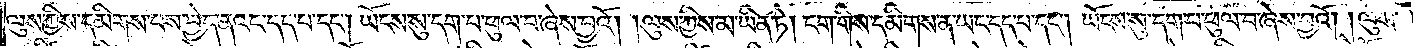ལུས་ཀྱིས་དམིགས་པས་བྱེད་ནའང་དད་པ་དང༌། ཡོངས་སུ་དག་པ་ཕུལ་བ་ཞེས་བྱའོ། །ལུས་ཀྱིས་མ་ཡིན་ཏེ། ངག་གིས་དམིགས་ན་ཡང་དད་པ་དང༌། ཡོངས་སུ་དག་པ་ཕུལ་བ་ཞེས་བྱའོ། །ལུས་
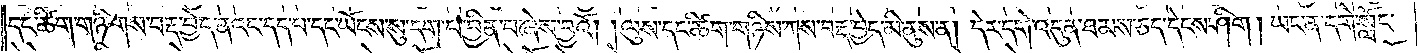དང་ཚིག་གཉི་གས་བརྡ་བྱེད་ནའང་དད་པ་དང་ཡོངས་སུ་དག་པ་བྱིན་པ་ཞེས་བྱའོ། །ལུས་དང་ཚིག་གཉིས་ཀས་བརྡ་བྱེད་མི་ནུས་ན། དེར་དགེ་འདུན་ཐམས་ཅད་དེངས་ཤིག། ཡང་ན་དགེ་སློང་
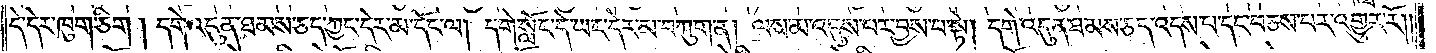དེ་དེར་ཁུག་ཅིག། དགེ་འདུན་ཐམས་ཅད་ཀྱང་དེར་མ་དོང་ལ། དགེ་སློང་དེ་ཡང་དེར་མ་བཀུག་ན། ལས་མ་འདུས་པར་བྱས་པ་སྟེ། དགེ་འདུན་ཐམས་ཅད་འདས་པ་དང་བཅས་པར་འགྱུར་རོ༎
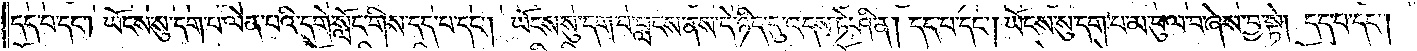དད་པ་དང༌། ཡོངས་སུ་དག་པ་ལེན་པའི་དགེ་སློང་གིས་དད་པ་དང༌། ཡོངས་སུ་དག་པ་བླངས་ནས་དེ་ཉིད་དུ་འདས་ཏེ་ཤི་ན། དད་པ་དང༌། ཡོངས་སུ་དག་པ་མ་ཕུལ་བ་ཞེས་བྱ་སྟེ། དད་པ་དང༌།
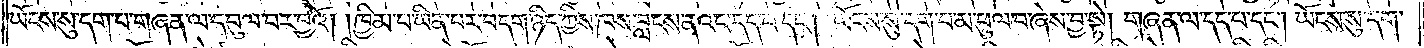ཡོངས་སུ་དག་པ་གཞན་ལ་དབུལ་བར་བྱའོ། །ཁྱིམ་པ་ཡིན་པར་བདག་ཉིད་ཀྱིས་ཁས་བླངས་ནའང་དད་པ་དང༌། ཡོངས་སུ་དག་པ་མ་ཕུལ་བ་ཞེས་བྱ་སྟེ། གཞན་ལ་དད་པ་དང༌། ཡོངས་སུ་དག་
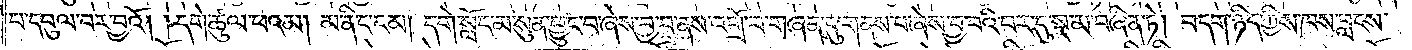པ་དབུལ་བར་བྱའོ། །དགེ་ཚུལ་ཕའམ། མ་ནིང་ངམ། དགེ་སློང་མ་སུན་ཕྱུང་བ་ཞེས་བྱ་བ་ནས་འགྲོ་བ་གཞན་དུ་གནས་པ་ཞེས་བྱ་བའི་བར་དུ་སྔ་མ་བཞིན་ཏེ། བདག་ཉིད་ཀྱིས་ཁས་བླངས་
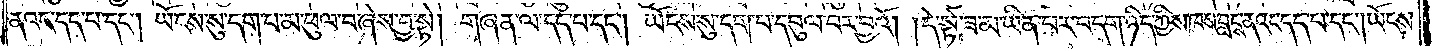ནའང་དད་པ་དང༌། ཡོངས་སུ་དག་པ་མ་ཕུལ་བ་ཞེས་བྱ་སྟེ། གཞན་ལ་དད་པ་དང༌། ཡོངས་སུ་དག་པ་དབུལ་བར་བྱའོ། །དེ་སྟེ་ཟ་མ་ཡིན་པར་བདག་ཉིད་ཀྱིས་ཁས་བླངས་ནའང་དད་པ་དང༌། ཡོངས་
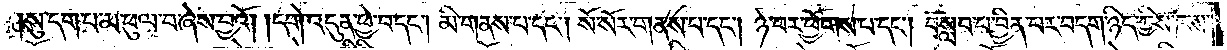སུ་དག་པ་མ་ཕུལ་བ་ཞེས་བྱའོ། །དགེ་འདུན་ཕྱེ་བ་དང༌། མི་གནས་པ་དང༌། སོ་སོར་གནས་པ་དང༌། ཉེ་བར་ཕྱོགས་པ་དང༌། བསླབ་པ་བྱིན་པར་བདག་ཉིད་ཀྱིས་ཁས་
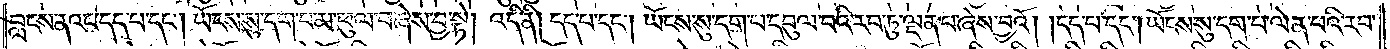བླངས་ནའང་དད་པ་དང༌། ཡོངས་སུ་དག་པ་མ་ཕུལ་བ་ཞེས་བྱ་སྟེ། འདི་ནི། དད་པ་དང༌། ཡོངས་སུ་དག་པ་དབུལ་བའི་རབ་ཏུ་ལྡན་པ་ཞེས་བྱའོ། །དད་པ་དང༌། ཡོངས་སུ་དག་པ་ལེན་པའི་རབ་
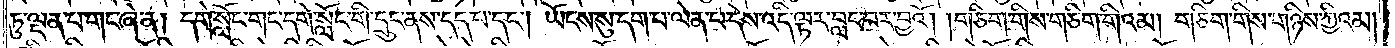ཏུ་ལྡན་པ་གང་ཞེ་ན། དགེ་སློང་གང་དགེ་སློང་གི་དྲུང་ནས་དད་པ་དང༌། ཡོངས་སུ་དག་པ་ལེན་པ་དེས་འདི་ལྟར་བླང་བར་བྱའོ། །གཅིག་གིས་གཅིག་གིའམ། གཅིག་གིས་གཉིས་ཀྱིའམ།
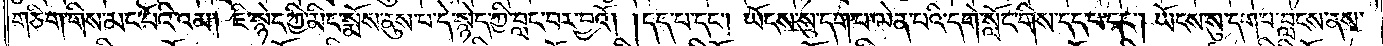གཅིག་གིས་མང་པོའི་འམ། ཇི་སྙེད་ཀྱི་མིང་སྨོས་ནུས་པ་དེ་སྙེད་ཀྱི་བླང་བར་བྱའོ། །དད་པ་དང༌། ཡོངས་སུ་དག་པ་ལེན་པའི་དགེ་སློང་གིས་དད་པ་དང༌། ཡོངས་སུ་དག་པ་བླངས་ནས་
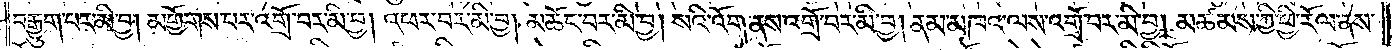བརྒྱུག་པར་མི་བྱ། མགྱོགས་པར་འགྲོ་བར་མི་བྱ། འཕར་བར་མི་བྱ། མཆོང་བར་མི་བྱ། སའི་འོག་ནས་འགྲོ་བར་མི་བྱ། ནམ་མཁའ་ལས་འགྲོ་བར་མི་བྱ། མཚམས་ཀྱི་ཕྱི་རོལ་ནས་
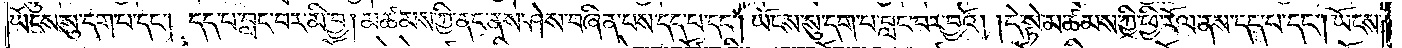ཡོངས་སུ་དག་པ་དང༌། དད་པ་བླང་བར་མི་བྱ། མཚམས་ཀྱི་ནང་ནས་ཤེས་བཞིན་པས་དད་པ་དང༌། ཡོངས་སུ་དག་པ་བླང་བར་བྱའོ། །དེ་སྟེ་མཚམས་ཀྱི་ཕྱི་རོལ་ནས་དད་པ་དང༌། ཡོངས་
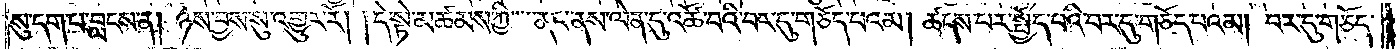སུ་དག་པ་བླངས་ན། ཉེས་བྱས་སུ་འགྱུར་རོ། །དེ་སྟེ་མཚམས་ཀྱི་ནང་ནས་ལེན་དུ་འཚོ་བའི་བར་དུ་གཅོད་པའམ། ཚངས་པར་སྤྱོད་པའི་བར་དུ་གཅོད་པའམ། བར་དུ་གཅོད་
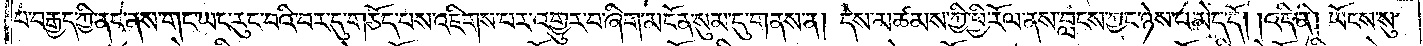བ་བརྒྱད་ཀྱི་ནང་ནས་གང་ཡང་རུང་བའི་བར་དུ་གཅོད་པས་འཇིགས་པར་འགྱུར་བ་ཞིག་མངོན་སུམ་དུ་གནས་ན། དེས་མཚམས་ཀྱི་ཕྱི་རོལ་ནས་བླངས་ཀྱང་ཉེས་པ་མེད་དོ། །འདི་ནི། ཡོངས་སུ་
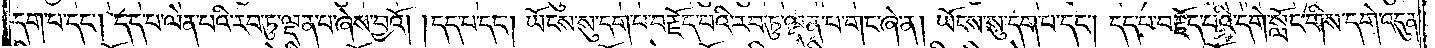དག་པ་དང༌། དད་པ་ལེན་པའི་རབ་ཏུ་ལྡན་པ་ཞེས་བྱའོ། །དད་པ་དང༌། ཡོངས་སུ་དག་པ་བརྗོད་པའི་རབ་ཏུ་ལྡན་པ་གང་ཞེ་ན། ཡོངས་སུ་དག་པ་དང༌། དད་པ་བརྗོད་པའི་དགེ་སློང་གིས་དགེ་འདུན་
